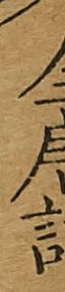全唐詩
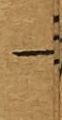一
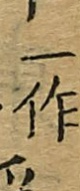一作
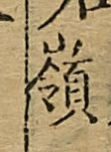嶺
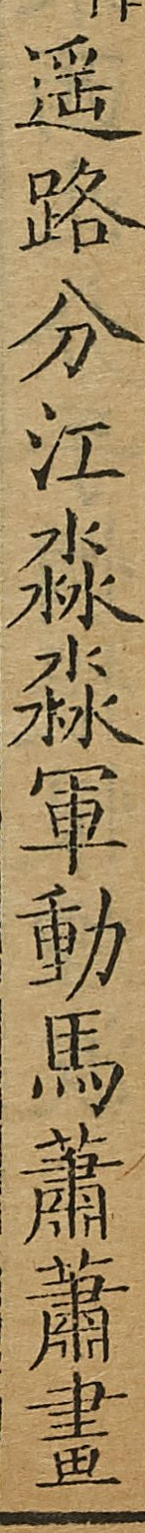遙路分江淼淼軍動馬蕭蕭畫
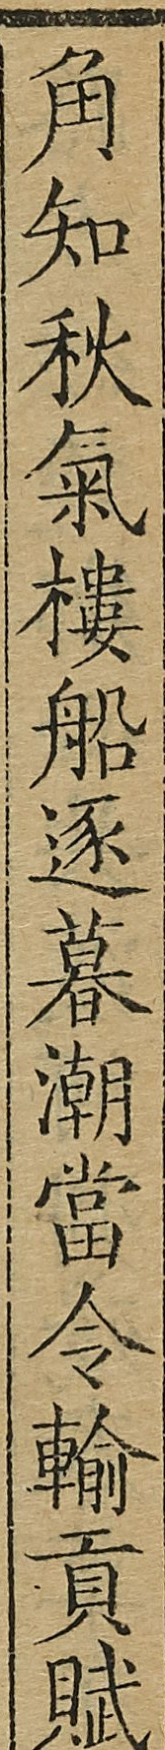角知秋氣樓船逐暮潮當令輸貢賦
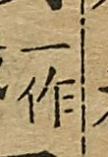一作
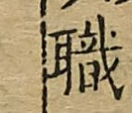職
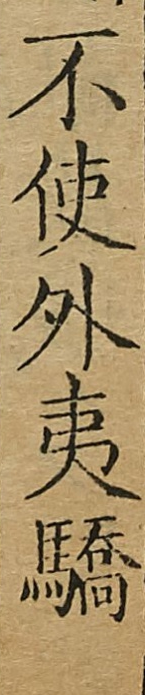不使外夷驕
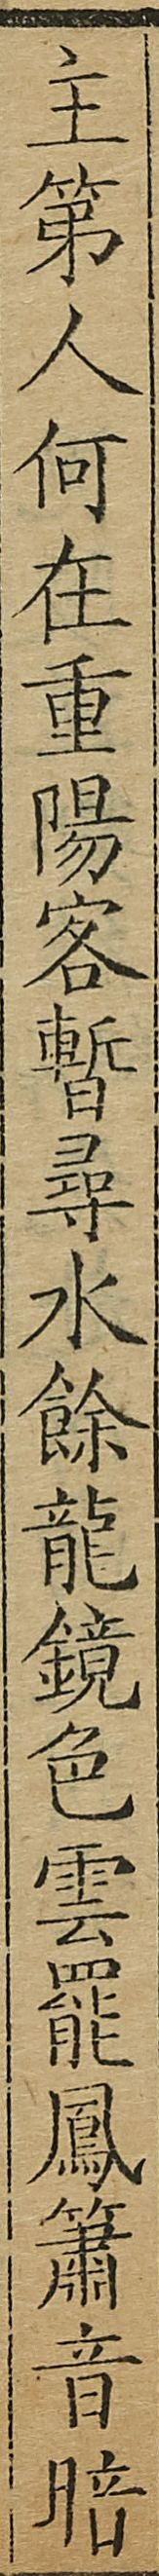主第人何在重陽客暫尋水餘龍鏡色雲罷鳳簫音暗
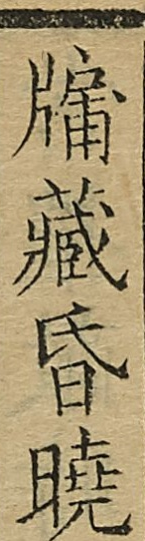牖藏昏曉
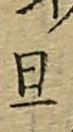旦
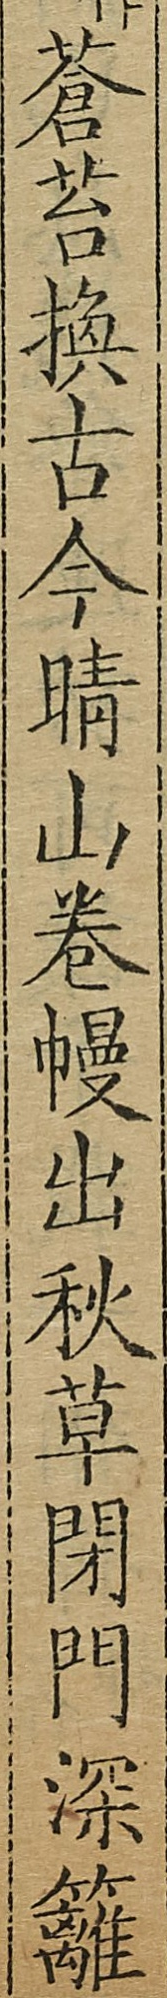蒼苔換古今晴山卷幔出秋草閉門深籬
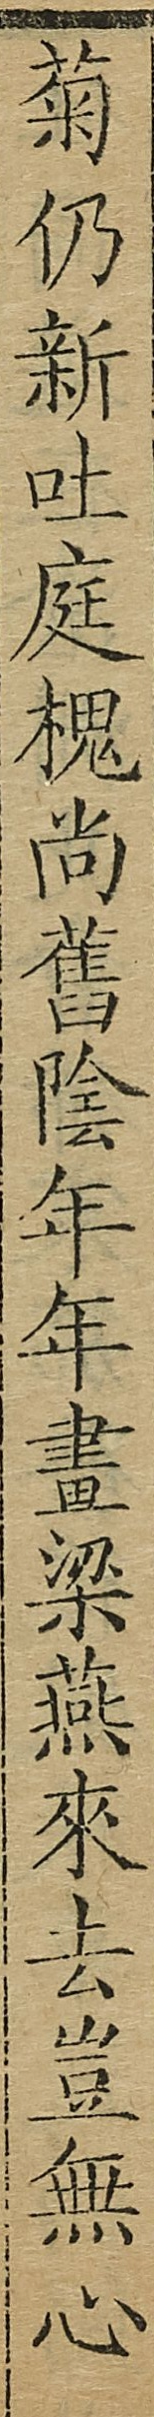菊仍新吐庭槐尚舊陰年年畫梁燕來去豈無心
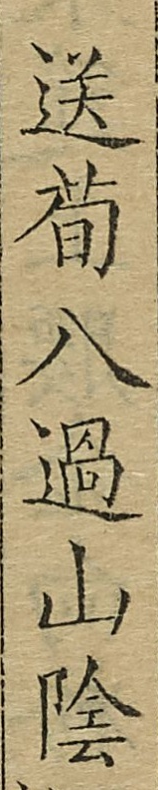送荀八過山陰
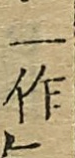一作
